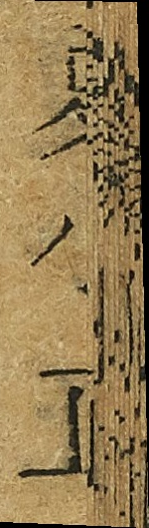夏小正
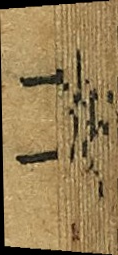二
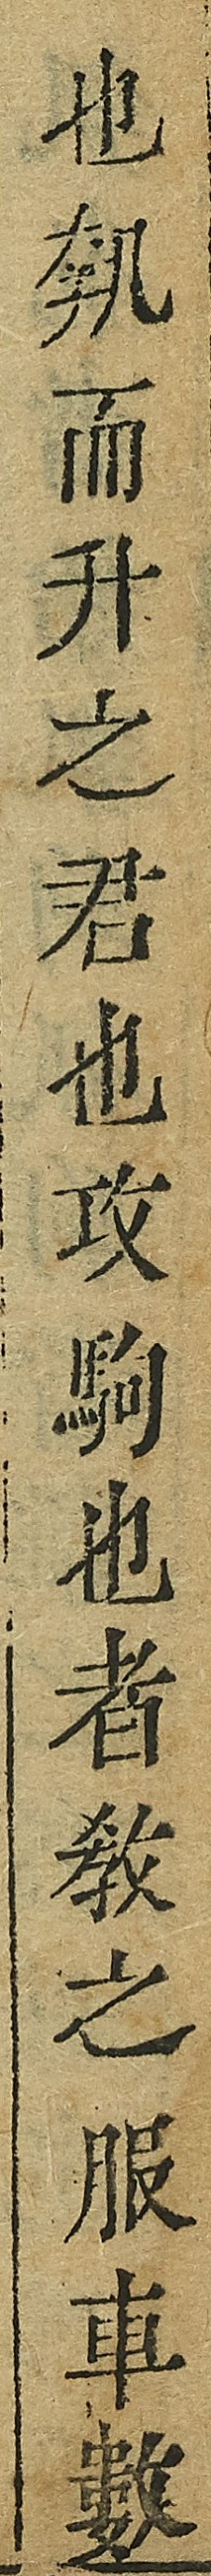也執而升之君也攻駒也者教之服車數
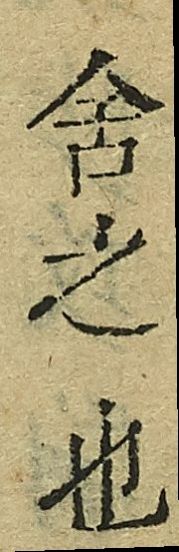舍之也
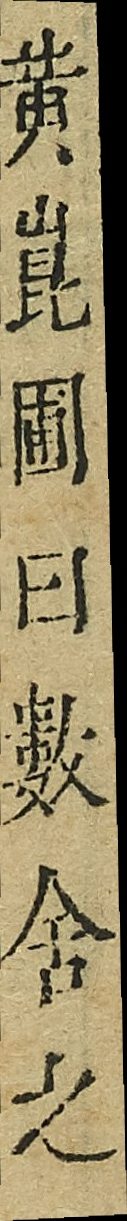黃昆圃曰數舍之
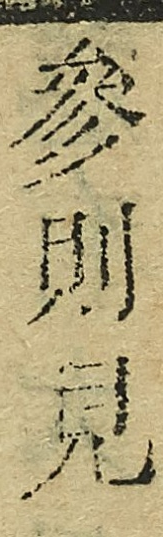參則見
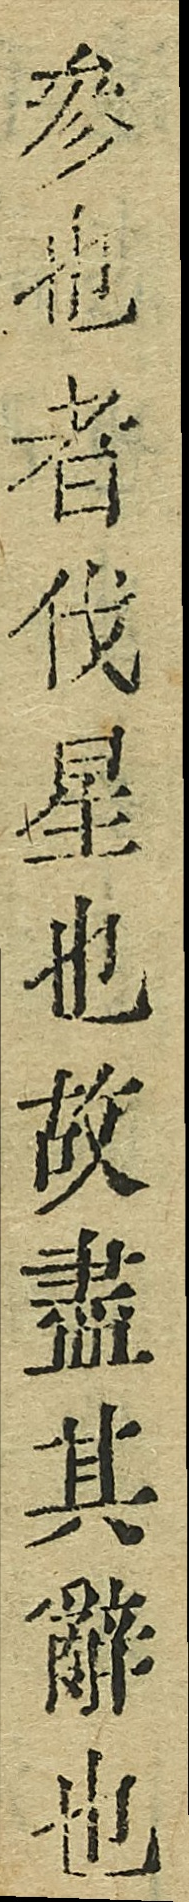參也者伐星也故盡其辭也
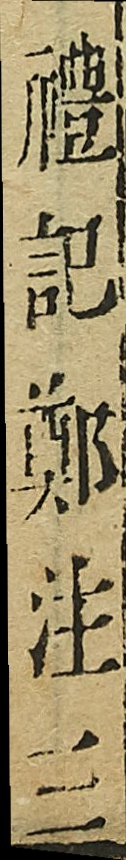禮記鄭注三
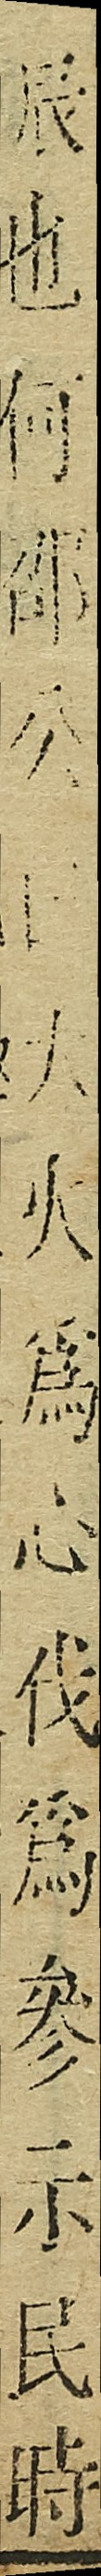辰也和邵公曰大火為心伐為參示民時
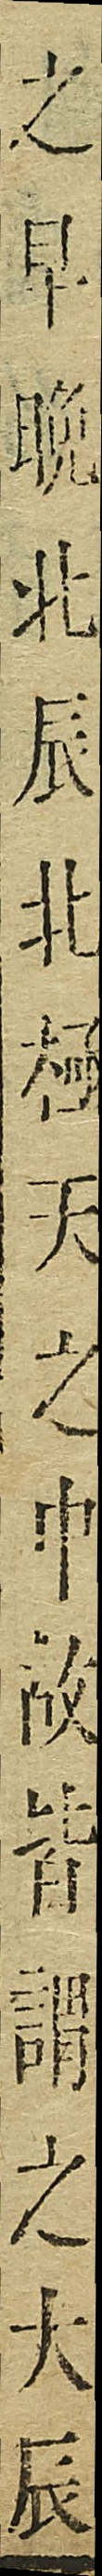之早晚北辰北極天之中故皆謂之大辰
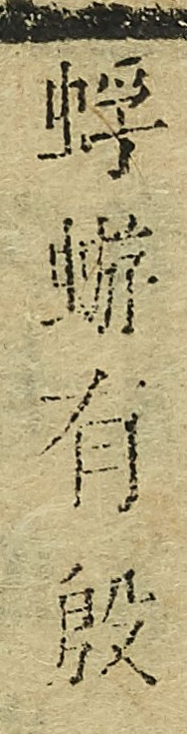蜉蝣有殷
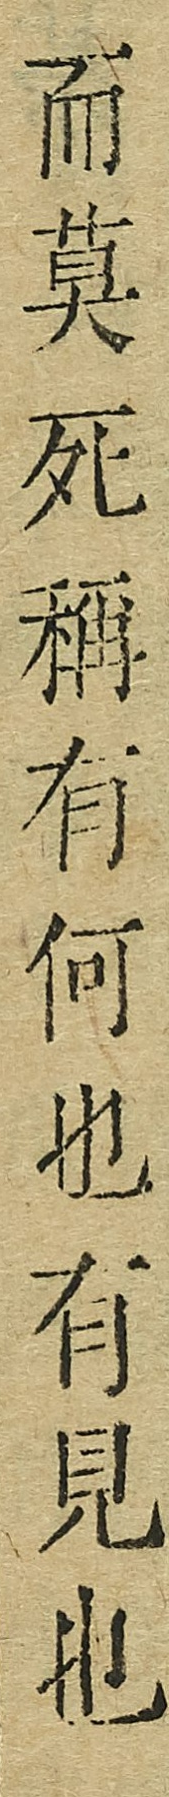而莫死稱有何也有見也
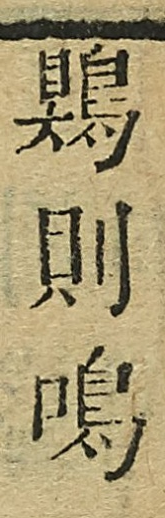鶪則鳴
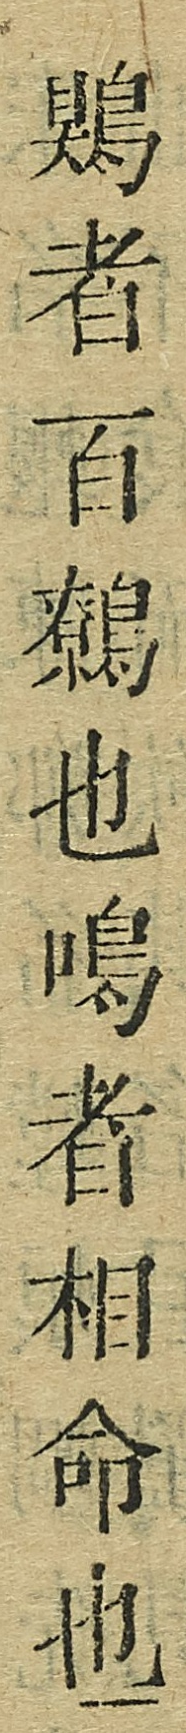鶪者百鷯也鸣者相命也
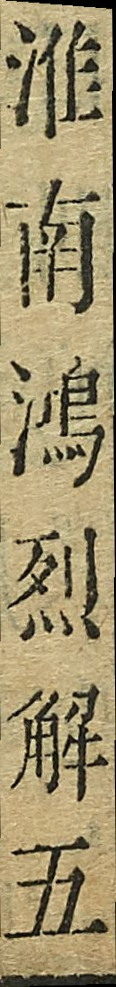淮南鴻烈解五
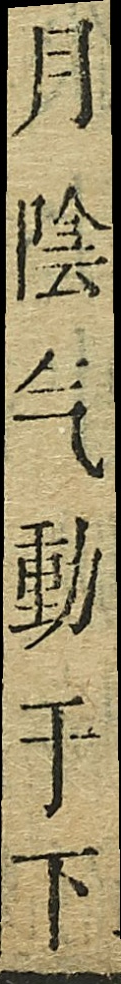月陰氣動于下
